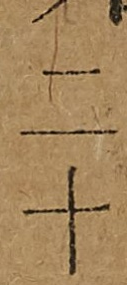二十
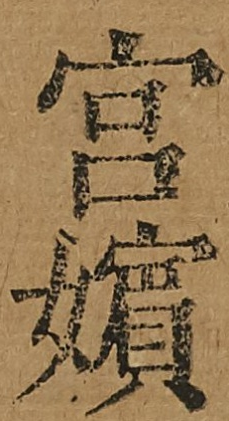宮嬪
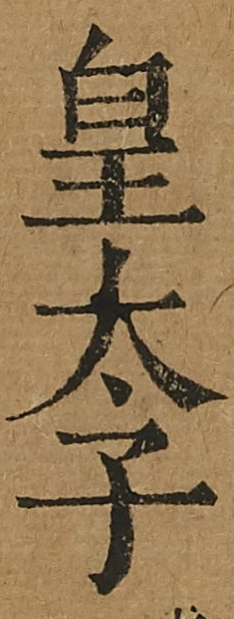皇太子
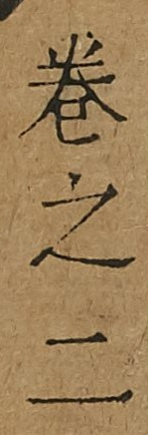卷之二
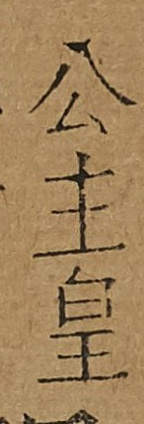公主皇
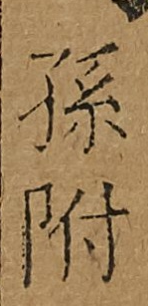孫附
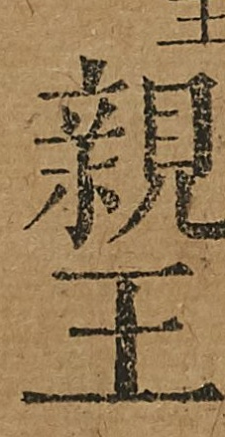親王
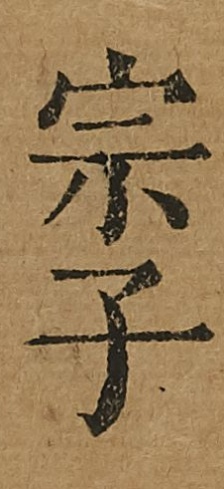宗子
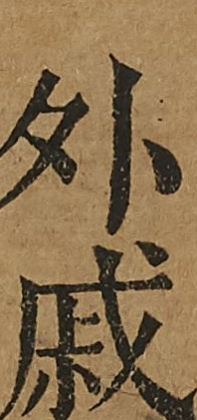外戚
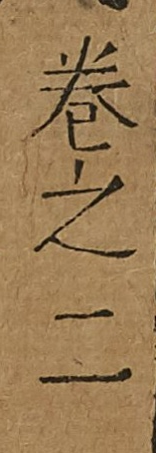卷之二
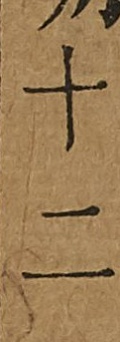十二
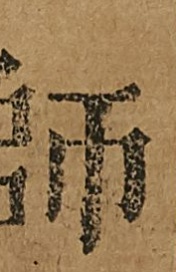師
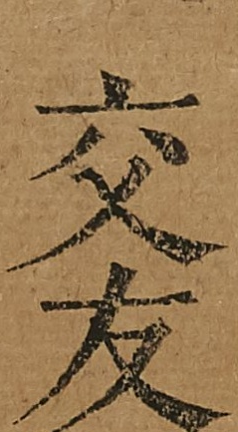交友
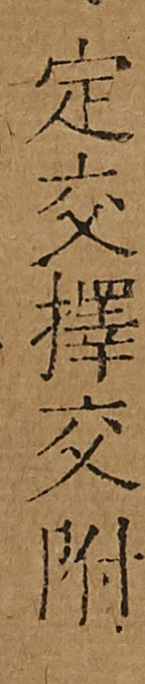定交擇交附
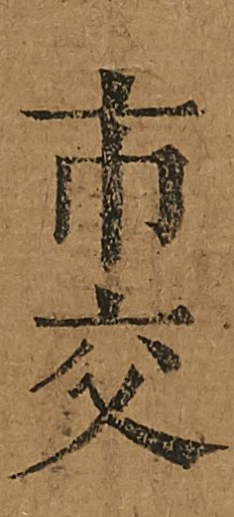市交
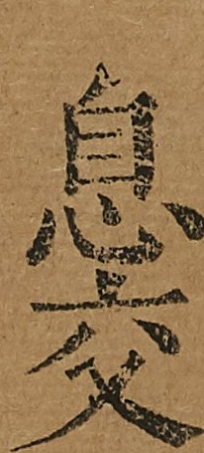息交
